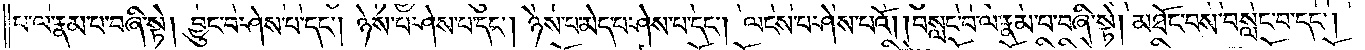པ་ལ་རྣམ་པ་བཞི་སྟེ། བྱུང་བ་ཤེས་པ་དང༌། ཉེས་པ་ཤེས་པ་དང༌། ཉེས་པ་མེད་པ་ཤེས་པ་དང༌། ལངས་པ་ཤེས་པའོ། །བསླང་བ་ལ་རྣམ་པ་བཞི་སྟེ། མཐོང་བས་བསླང་བ་དང༌།
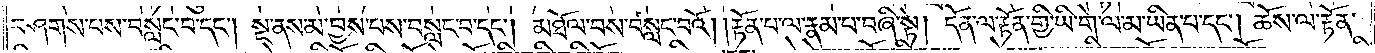བཤགས་པས་བསླང་བ་དང༌། སྔ་ནས་མ་བྱས་པས་བསླང་བ་དང༌། མཐོལ་བས་བསླང་བའོ། །རྟོན་པ་ལ་རྣམ་པ་བཞི་སྟེ། དོན་ལ་རྟོན་གྱི་ཡི་གེ་ལ་མ་ཡིན་པ་དང༌། ཆོས་ལ་རྟོན་
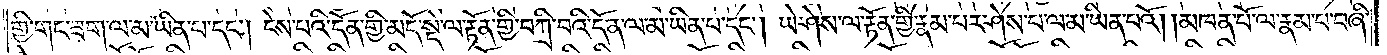གྱི་གང་ཟག་ལ་མ་ཡིན་པ་དང༌། ངེས་པའི་དོན་གྱི་མདོ་སྡེ་ལ་རྟོན་གྱི་བཀྲི་བའི་དོན་ལ་མ་ཡིན་པ་དང༌། ཡེ་ཤེས་ལ་རྟོན་གྱི་རྣམ་པར་ཤེས་པ་ལ་མ་ཡིན་པའོ། །མཁན་པོ་ལ་རྣམ་པ་བཞི་
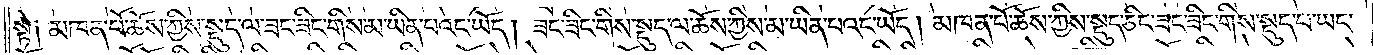སྟེ༑ མཁན་པོ་ཆོས་ཀྱིས་སྡུད་ལ་ཟང་ཟིང་གིས་མ་ཡིན་པའང་ཡོད། ཟང་ཟིང་གིས་སྡུད་ལ་ཆོས་ཀྱིས་མ་ཡིན་པའང་ཡོད། མཁན་པོ་ཆོས་ཀྱིས་སྡུད་ཅིང་ཟང་ཟིང་གིས་སྡུད་པ་ཡང་
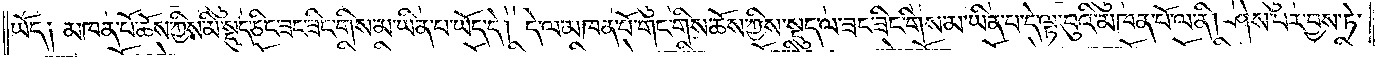ཡོད༑ མཁན་པོ་ཆོས་ཀྱིས་མི་སྡུད་ཅིང་ཟང་ཟིང་གིས་མ་ཡིན་པ་ཡོད་དེ། དེ་ལ་མཁན་པོ་གང་གིས་ཆོས་ཀྱིས་སྡུད་ལ་ཟང་ཟིང་གིས་མ་ཡིན་པ་དེ་ལྟ་བུའི་མཁན་པོ་ལ་ནི། ཤེས་པར་བྱས་ཏེ་
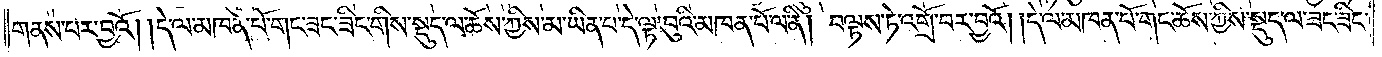གནས་པར་བྱའོ། །དེ་ལ་མཁན་པོ་གང་ཟང་ཟིང་གིས་སྡུད་ལ་ཆོས་ཀྱིས་མ་ཡིན་པ་དེ་ལྟ་བུའི་མཁན་པོ་ལ་ནི། བལྟས་ཏེ་འགྲོ་བར་བྱའོ། །དེ་ལ་མཁན་པོ་གང་ཆོས་ཀྱིས་སྡུད་ལ་ཟང་ཟིང་
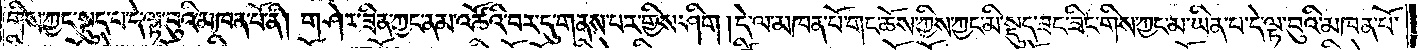གིས་ཀྱང་སྡུད་པ་དེ་ལྟ་བུའི་མཁན་པོ་ནི། གཤེར་ཟིན་ཀྱང་ནམ་འཚོའི་བར་དུ་གནས་པར་གྱིས་ཤིག །དེ་ལ་མཁན་པོ་གང་ཆོས་ཀྱིས་ཀྱང་མི་སྡུད་ཟང་ཟིང་གིས་ཀྱང་མ་ཡིན་པ་དེ་ལྟ་བུའི་མཁན་པོ་
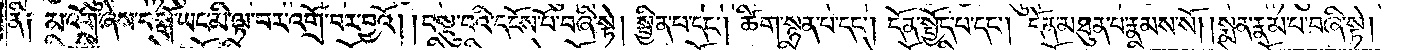ནི༑ མ་འགྲོ་ཞེས་བསྒོ་ཡང་མི་ལྟ་བར་འགྲོ་བར་བྱའོ། །བསྡུ་བའི་དངོས་པོ་བཞི་སྟེ། སྦྱིན་པ་དང༌། ཚིག་སྙན་པ་དང༌། དོན་སྤྱོད་པ་དང༌། དོན་མཐུན་པ་རྣམས་སོ། །སྨན་རྣམ་པ་བཞི་སྟེ།
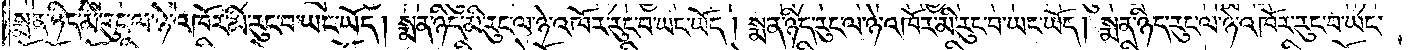སྨན་ཉིད་མི་རུང་ལ་ཉེ་འཁོར་མི་རུང་བ་ཡང་ཡོད། སྨན་ཉིད་མི་རུང་ལ་ཉེ་འཁོར་རུང་བ་ཡང་ཡོད། སྨན་ཉིད་རུང་ལ་ཉེ་འཁོར་མི་རུང་བ་ཡང་ཡོད། སྨན་ཉིད་རུང་ལ་ཉེ་འཁོར་རུང་བ་ཡང་
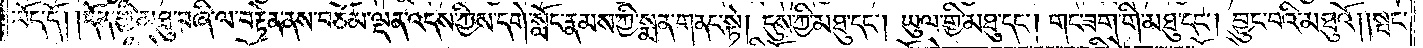ཡོད་དོ། །དོན་གྱི་མཐུ་བཞི་ལ་བརྟེན་ནས་བཅོམ་ལྡན་འདས་ཀྱིས་དགེ་སློང་རྣམས་ཀྱི་སྨན་གནང་སྟེ། དུས་ཀྱི་མཐུ་དང༌། ཡུལ་གྱི་མཐུ་དང༌། གང་ཟག་གི་མཐུ་དང༌། བྱུང་བའི་མཐུའོ། །སྤང་
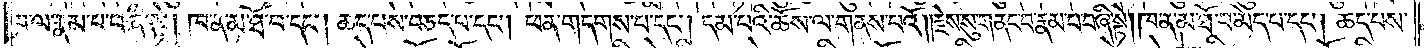བ་ལ་རྣམ་པ་བཞི་སྟེ། ཁ་ན་མ་ཐོ་བ་དང༌། ཆད་པས་བཅད་པ་དང༌། ཕན་གདགས་པ་དང༌། དམ་པའི་ཆོས་ལ་གནས་པའོ། །རྗེས་སུ་གནང་བ་རྣམ་པ་བཞི་སྟེ། ཁ་ན་མ་ཐོ་བ་མེད་པ་དང༌། ཆད་པས་
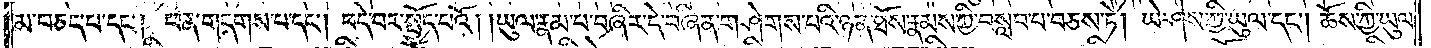མ་བཅད་པ་དང༌། ཕན་གདགས་པ་དང༌། བདེ་བར་སྤྱོད་པའོ། །ཡུལ་རྣམ་པ་བཞིར་དེ་བཞིན་གཤེགས་པའི་ཉན་ཐོས་རྣམས་ཀྱི་བསླབ་པ་བཅས་ཏེ། ཡེ་ཤེས་ཀྱི་ཡུལ་དང༌། ཆོས་ཀྱི་ཡུལ་
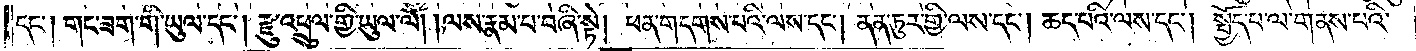དང༌། གང་ཟག་གི་ཡུལ་དང༌། རྫུ་འཕྲུལ་གྱི་ཡུལ་ལོ། །ལས་རྣམ་པ་བཞི་སྟེ། ཕན་གདགས་པའི་ལས་དང༌། ནན་ཏུར་གྱི་ལས་དང༌། ཆད་པའི་ལས་དང༌། སྤྱོད་པ་ལ་གནས་པའི་
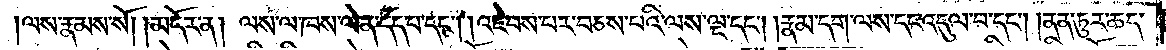ལས་རྣམས་སོ། །མདོར་ན། ལས་ལ་ཁས་ལེན་དད་པ་དང༌། །འཇེབས་པར་བཅས་པའི་ལས་ལྔ་དང༌། །རྣམ་དག་ལས་དང་འདུལ་བ་དང༌། །ནན་ཏུར་ཆད་
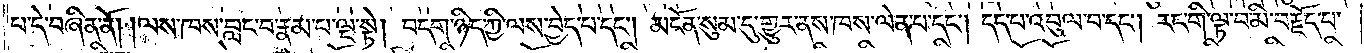པ་དེ་བཞིན་ནོ། །ལས་ཁས་བླང་བ་རྣམ་པ་ལྔ་སྟེ། བདག་ཉིད་ཀྱི་ལས་བྱེད་པ་དང༌། མངོན་སུམ་དུ་གྱུར་ནས་ཁས་ལེན་པ་དང༌། དད་པ་འབུལ་བ་དང༌། རང་གི་ལྟ་བ་མི་བརྗོད་པ་
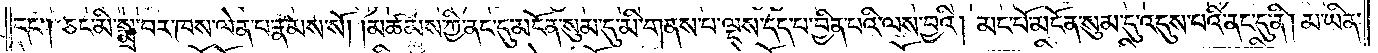དང༌། ཅང་མི་སྨྲ་བར་ཁས་ལེན་པ་རྣམས་སོ། །མཚམས་ཀྱི་ནང་དུ་མངོན་སུམ་དུ་མི་གནས་པ་ལྔས་དད་པ་བྱིན་པའི་ལས་བྱའི། མང་པོ་མངོན་སུམ་དུ་འདུས་པའི་ནང་དུ་ནི། མ་ཡིན་
